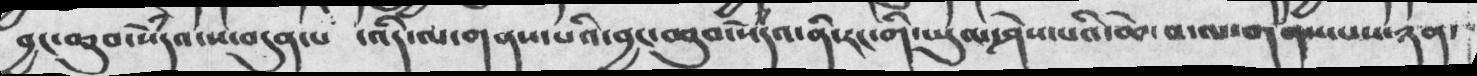བྱང་ཆུབ་སེཾདའ་ས་བདུན་པ   ་འདི་ལ་གནས་པའི་བྱང་ཆུབ་སེཾདའ་ནི་རང་གི་ཡུལ་ཤེས་པའི་ཆེ་བ་ལ་གནས་པས་ཉན་
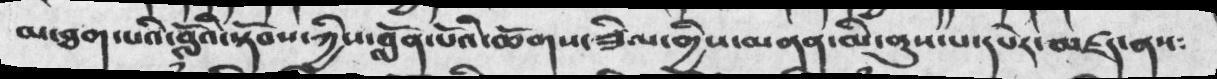མ་ཐག་པའི་བློའི་སྟོབས་ཀྱིས་བློན་པོའི་ཆོགས་ཟིལ་གྱིས་མནན་མ་ནུས་པ་དཔེར་མཛད་ནས༴
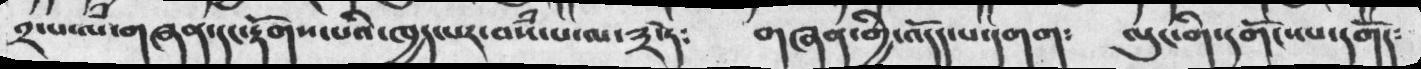༢་པ་ལ་གཞན་དང་རྟོགས་པའི་ཁྱད་པར་བསཾ་པ་ལ་༣་ཏེ༴      གཞན་གྱི་འདོད་པ་དགག༴     ལུང་གི་དགོངས་པ་དགོད༴
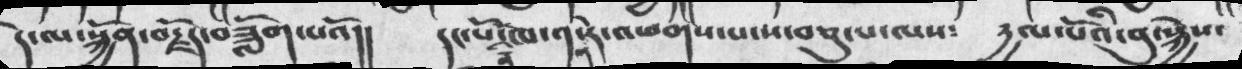དེ་ལ་སྐྱོན་བརྗོད་བཟློག་པའོ།།  དང་པོ་ནི་ཁ་༡་ན་རེ་འཕགས་པ་ས་བཅུ་པ་ལས༴  དྱལ་པོའི་བུ་སྐྱེས་
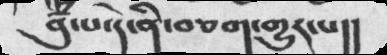བུཾ་པ་དེ་ནི་བཅག་གྱུར་པ།།
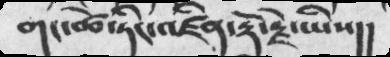གང་ཚེ་ཏིང་འཛིན་རྡོ་རྗེ་ཡིས།།
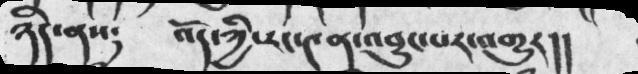ཉིད་ནས༴   འོད་ཀྱི་རང་༤ན་འབྱུར་པར་འགྱུར།།
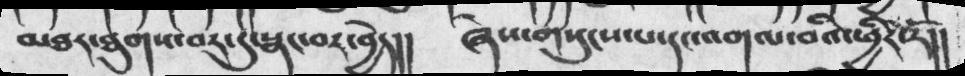མཐར་ཐུགས་བར་དུ་སྣང་བར་བྱེད།།   ཞེས་གསུངས་པ་དང་འགལ་བའི་ཕྱིར་རོ།།
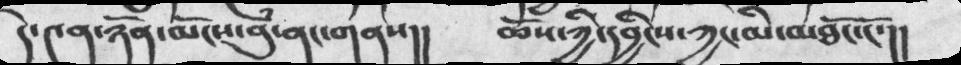དེ་༤ན་ཉོན་མོངས་བུཾ་ནང་གནས།།      ཆོས་ཀྱི་དབྱིངས་ཀྱང་མི་མཐོང་ངོ་།།
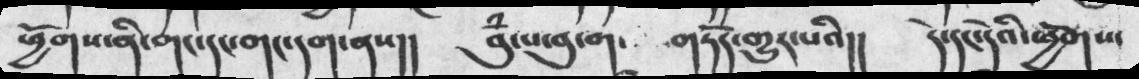ཕྱོགས་ནི་གང་དང་གང་དག་ནས།།    བུཾ་པ་བུ་ག་      གཏོར་གྱུར་པའི།།    དེ་དང་དེའི་ཕྱོགས་
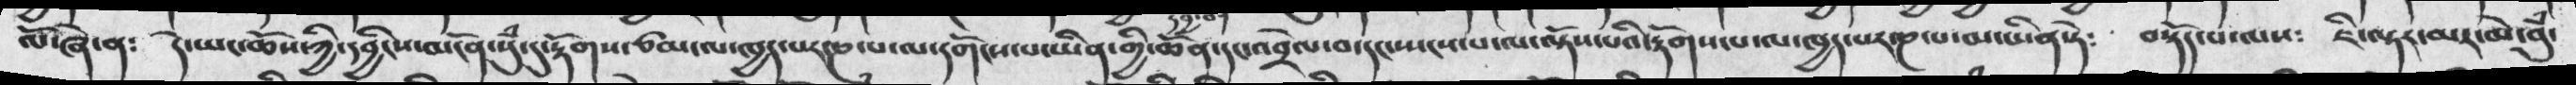ལོ་ཞེ་ན༴  དེ་ཡང་ཆོས་ཀྱི་དབྱིངས་མངོན་སུཾ་དུ་རྟོགས་ཙམ་ལ་ཁྱད་པར་ཎ་པ་ལ་དགོངས་པ་ཡིན་གྱི་ཆོན་དང་འབྲེལ་བ་དང་སྤངས་པ་ལ་ལྟོས་པའི་རྟོགས་པ་ལ་ཁྱད་པར་ཎ་པ་མ་ཡིན་ཏེ༴   བསྟོད་པ་ལས༴  ཇི་ལྟར་མར་མེ་བུཾ་
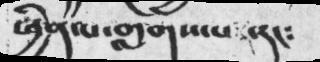ཕྱིན་པ་གླགས་པ་  དང༴
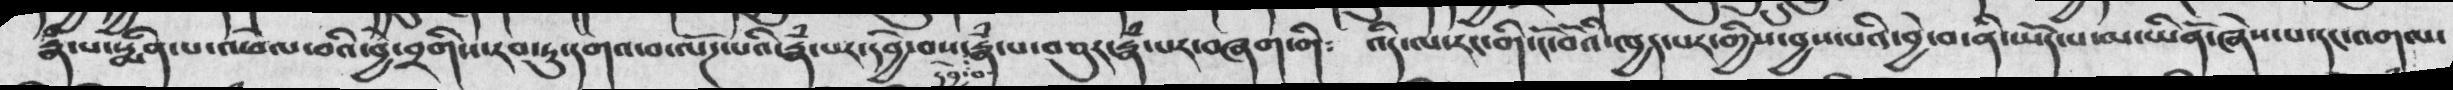རྣཾ་པ་སྨིན་པ་འཕེལ་བའི་བྱེ་བྲགིས་རབ་ཏུ་དགའ་བ་ལོཌ་པའི་རྣཾ་པར་དབྱེ་བས་དབྱེ་བ་རྣཾ་པ་བཅུར་རྣཾ་པར་བཞག་གི༴  འདི་ལ་ཡང་གི་ངོ་བོའི་ཁྱད་པར་གྱིས་བྱས་པའི་བྱེ་བ་ནི་ཡོད་པ་མ་ཡིནོ་ཞེས་པ་དང་འགལ་
